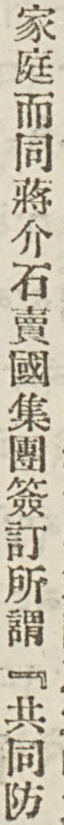家庭而同蔣介石賣國集團簽訂所謂『共同防
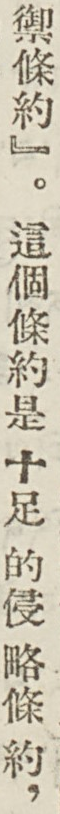禦條約』。這個條約是 十足 的侵略條約，
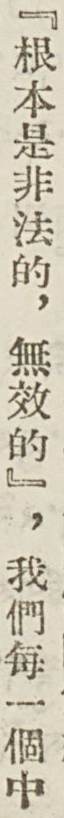『根本是非法的，無效的』，我們每一個中
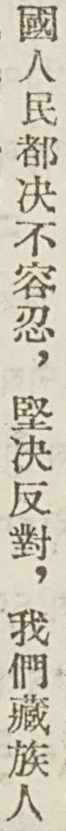國人民都絕不容忍，堅決反對，我們藏族人
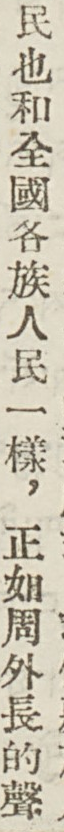民也和全國各族人民一樣，正如周外長的聲
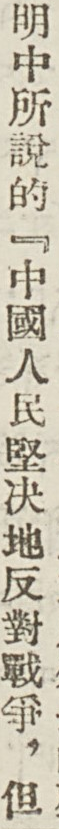明中所說的『中國人民堅決地反對戰爭，但
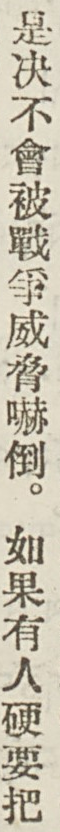是決不會被戰爭威脅嚇倒。如果有人硬要把
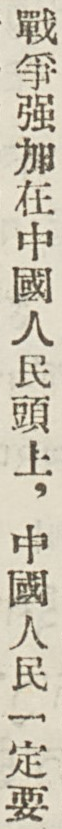戰爭強加在中國人民頭上，中國人民一定要
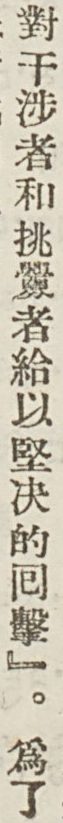對干涉者和挑釁者給以堅決的囘擊』。爲了
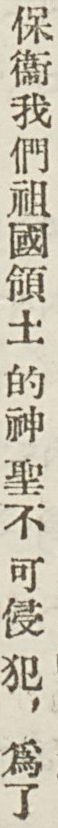保衛我們祖國領土 的神 聖不 可侵犯，爲了
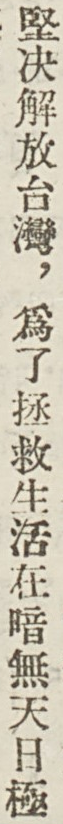堅決解放台灣，爲了拯救生活在暗無天日極
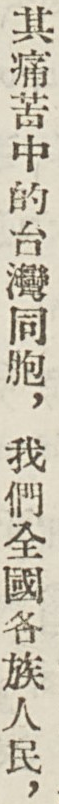其痛苦中的台灣同胞，我們全國各族人民，
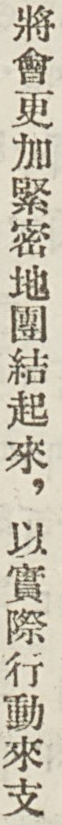將會更加緊密地團結起來，以實際行動來支
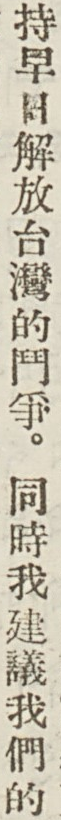持早日解放台灣的鬥爭。同時我建議我們的
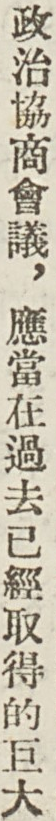政治協商會議，應當在過去已經取得的巨大
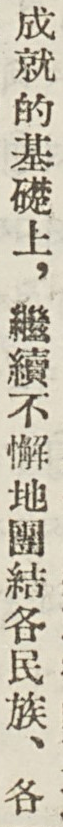成就的基礎上，繼續不懈地團結各民族、各
